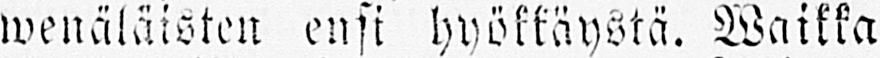wenäläisten ensi hyökkäystä. Waikka
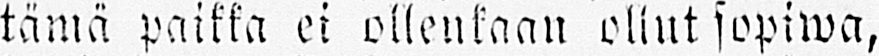tämä paikka ei ollenkaan oliut sopiwa,
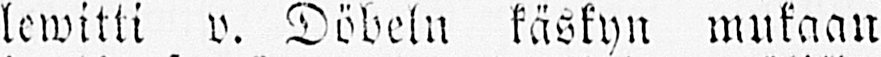lewitti v. Döbeln käskyn mukaan
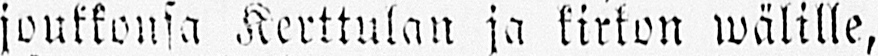joukkonsa Kerttulan sa kirkon wälille,
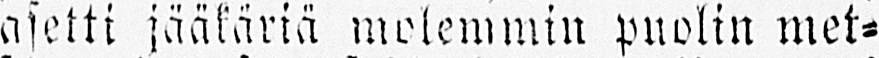asetti jääkäriä molemmin puolin met-
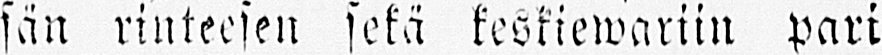sän rinteesen sekä keskiewariin pari
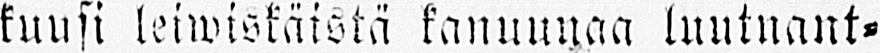kuusi leiwiskäistä kanuunaa luutnant-
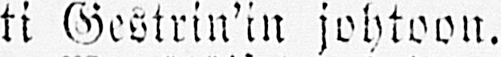ti Gestrin'in johtoon.
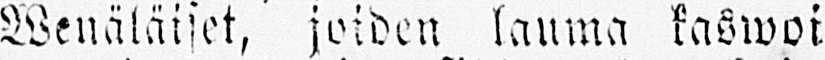Wenäläiset, joiden lauma kaswoi
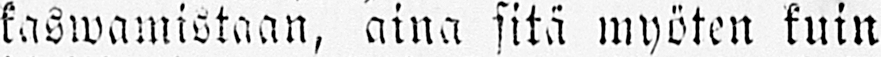kaswamistaan, aina sitä myöten kuin
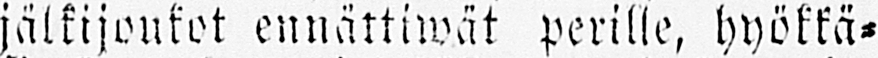jälkijoukot ennättiwät perille, hyökkä-
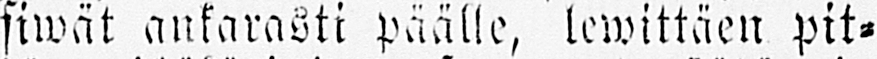siwät ankarasti päälle, lewittäen pit-
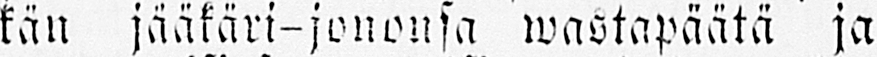kän jääkäri-jononsa wastapäätä ja
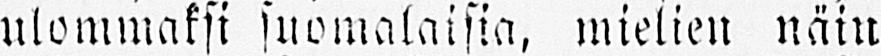ulommaksi suomalaisia, mielien näin
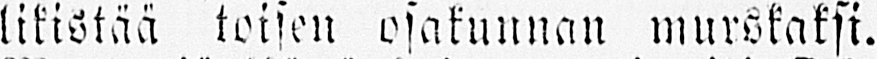likistää toisen osakunnan murskaksi.
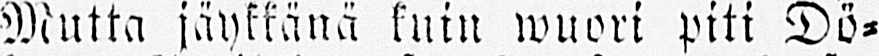Mutta jäykkänä kuin wuori piti Dö-
